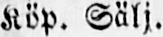Köp. Sälj.
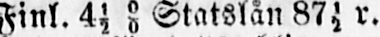Finl. 4½ 0/0 Statslån 87½ r.
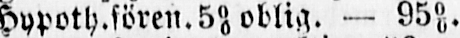Hypoth.fören.5 oblig. — 95 0/0.
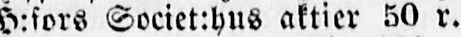H:fors Societ:hus aktier 50 r.
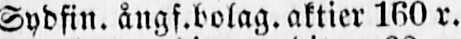Sydfin. ångs.bolag. aktier 160 r.
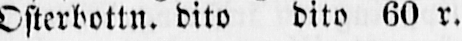Osterbottn. dito dito 60 r.
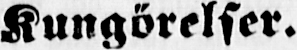Kungörelser.
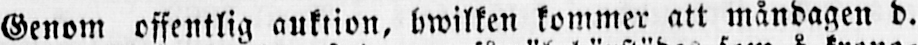Genom offentlig auktion, hwilken kommer att måndagen d.
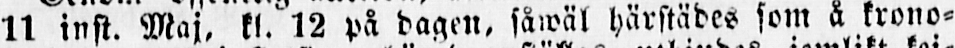11 inst. Maj, kl. 12 på dagen, såwäl härstädes som å krono-
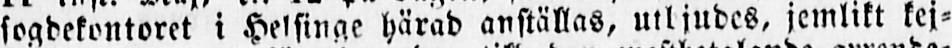fogdekontoret i Helsinge härad anställas, utbjudes, jemlikt kej-
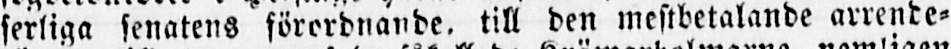serliga senatens förordnande, till den mestbetalande arrende-
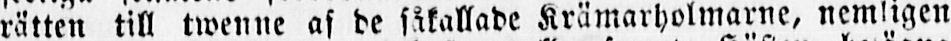rätten till twenne af de såkallade Krämarholmarne, nemligen
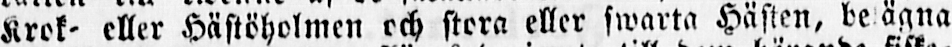Krok- eller Hästöholmen och stora eller swarta Hästen, be ägna
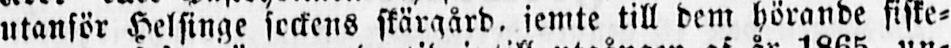utanför Helsinge sockens skärgård. jemte till dem hörande fiske-
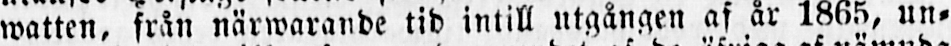watten, från närwarande tid intill utgången af år 1865, un-
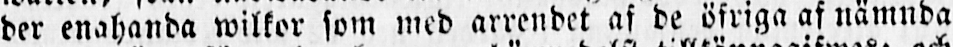der enahanda wilkor som med arrendet af de öfriga af nämnda
